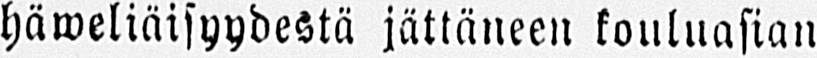häweliäisyydestä jättäneen kouluasian
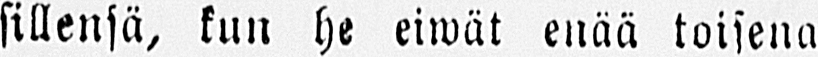sillensä, kun he eiwät enää toisena
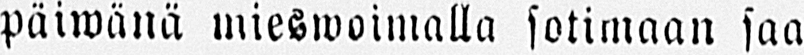päiwänä mieswoimalla sotimaan saa-
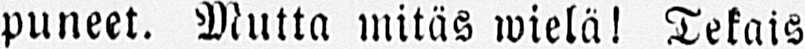puneet. Mutta mitäs wielä! Tekais-
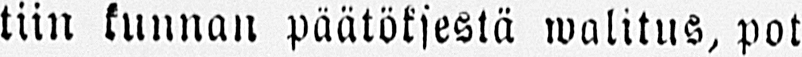tiin kunnan päätöksestä walitus, pot-
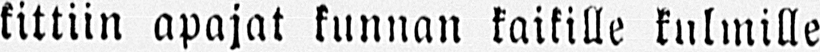kittiin apajat kunnan kaikille kulmille
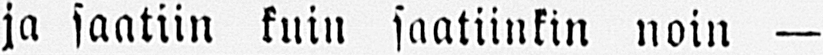ja saatiin kuin saatiinkin noin —
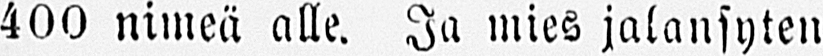400 nimeä alle. Ja mies jalansyten
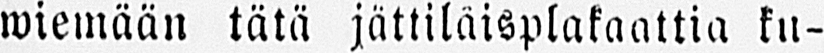wiemään tätä jättiläisplakaattia ku-
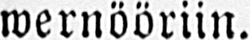wernööriin.
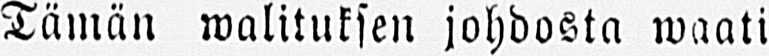Tämän walituksen johdosta waati
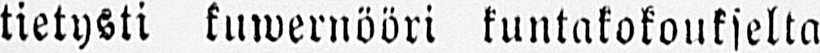tietysti kuwernööri kuntakokoukselta
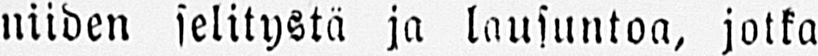niiden selitystä ja lausuntoa, jotka
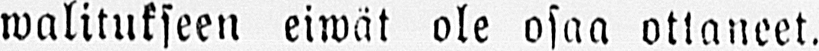walitukseen eiwät ole osaa ottaneet.
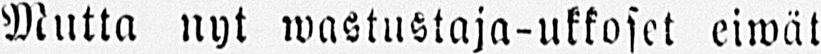Mutta nyt wastustaja-ukkoset eiwät
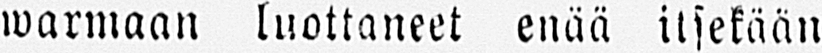warmaan luottaneet enää itsekään
